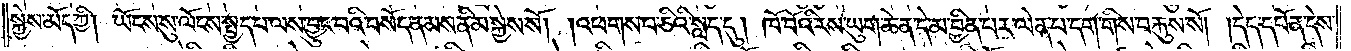སྐྱེས་མོད་ཀྱི། ཡོངས་སུ་ལོངས་སྤྱད་པ་ལས་བྱུང་བའི་བསོད་ནམས་ནི་མ་སྐྱེས་སོ། །འཕགས་པ་ཅིའི་སླད་དུ། ཁོ་བོའི་རས་ཡུག་ཆེན་དེ་མ་བྱིན་པར་ལེན་པ་དག་གིས་བརྐུས་སོ། །དེད་དཔོན་དེས་
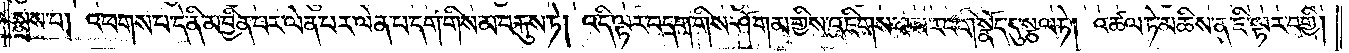སྨྲས་པ། འཕགས་པ་དེ་ནི་མ་བྱིན་པར་ལེན་པར་ལེན་པ་དག་གིས་མ་བརྐུས་ཏེ། འདི་ལྟར་བདག་གིས་ཤོ་གམ་གྱིས་འཇིགས་པས་རང་གི་སྣོད་དུ་སྩལ་ཏེ། འཚལ་ཏེ་མཆིས་ན་ཇི་ལྟར་བགྱི།
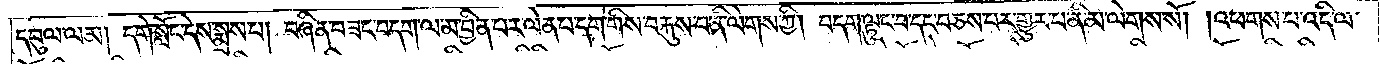དབུལ་ལམ། དགེ་སློང་དེས་སྨྲས་པ། བཞིན་བཟང་བདག་ལ་མ་བྱིན་པར་ལེན་པ་དག་གིས་བརྐུས་པ་ནི་ལེགས་ཀྱི། བདག་ལྟུང་བ་དང་བཅས་པར་གྱུར་པ་ནི་མ་ལེགས་སོ། །འཕགས་པ་འདི་ལ་
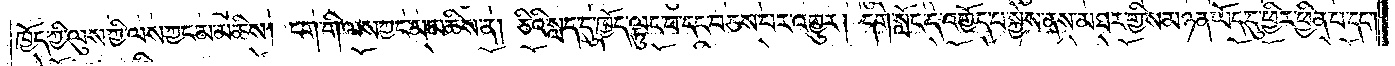ཁྱོད་ཀྱི་ལུས་ཀྱི་ལས་ཀྱང་མ་མཆིས། ངག་གི་ལས་ཀྱང་མ་མཆིས་ན། ཅིའི་སླད་དུ་ཁྱོད་ལྟུང་བ་དང་བཅས་པར་འགྱུར། དགེ་སློང་དེ་འགྱོད་པ་སྐྱེས་ནས་མཐར་གྱིས་མཉན་ཡོད་དུ་ཕྱིར་ཕྱིན་པ་དང༌།
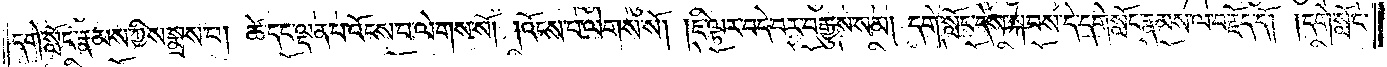དགེ་སློང་རྣམས་ཀྱིས་སྨྲས་པ། ཚེ་དང་ལྡན་པ་འོངས་པ་ལེགས་སོ། །འོངས་པ་ལེགས་སོ། །ཇི་ལྟར་བདེ་བར་བརྒྱུས་སམ། དགེ་སློང་དེས་སྐབས་དེ་དགེ་སློང་རྣམས་ལ་བརྗོད་དོ། །དགེ་སློང་
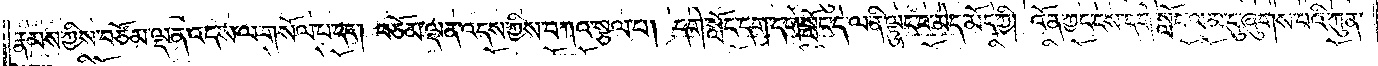རྣམས་ཀྱིས་བཅོམ་ལྡན་འདས་ལ་གསོལ་པ་དང༌། བཅོམ་ལྡན་འདས་ཀྱིས་བཀའ་སྩལ་པ། དགེ་སློང་དག་དགེ་སློང་དེ་ལ་ནི་ལྟུང་བ་མེད་མོད་ཀྱི། འོན་ཀྱང་ངས་དགེ་སློང་ལམ་དུ་ཞུགས་པའི་ཀུན་
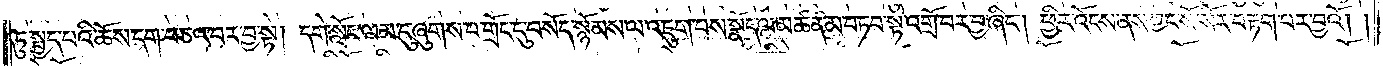ཏུ་སྤྱད་པའི་ཆོས་དག་བཅའ་བར་བྱ་སྟེ། དགེ་སློང་ལམ་དུ་ཞུགས་པ་གྲོང་དུ་བསོད་སྙོམས་ལ་འཇུག་པས་སྣོད་ལ་མཚན་མ་བཏབ་སྟེ་འགྲོ་བར་བྱ་ཞིང༌། ཕྱིར་འོངས་ནས་ཀྱང་སོ་སོར་བརྟག་པར་བྱའོ༎
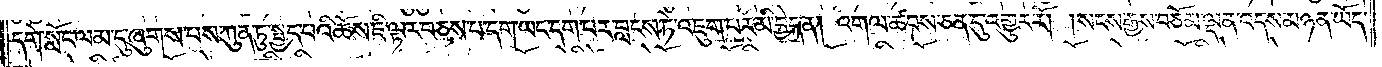དགེ་སློང་ལམ་དུ་ཞུགས་པས་ཀུན་ཏུ་སྤྱད་པའི་ཆོས་ཇི་ལྟར་བཅས་པ་དག་ཡང་དག་པར་བླངས་ཏེ་འཇུག་པར་མི་བྱེད་ན། འགལ་ཚབས་ཅན་དུ་འགྱུར་རོ། །སངས་རྒྱས་བཅོམ་ལྡན་འདས་མཉན་ཡོད་
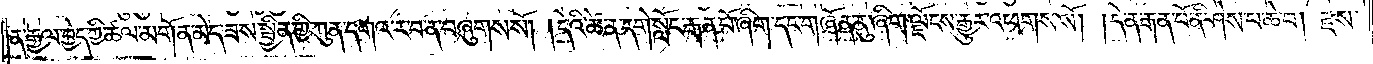ན་རྒྱལ་བྱེད་ཀྱི་ཚལ་མགོན་མེད་ཟས་སྦྱིན་གྱི་ཀུན་དགའ་ར་བ་ན་བཞུགས་སོ། །དེའི་ཚེ་ན་དགེ་སློང་རྒན་པོ་ཞིག་དང་གཞོན་ནུ་ཞིག་ལྗོངས་རྒྱུར་འཕགས་སོ། །དེ་ན་རྒན་པོ་ནི་ཤེས་པ་ཆེ་བ། རྫས་
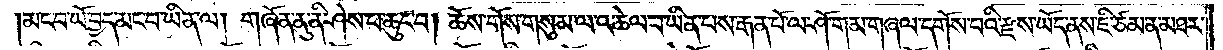མང་བ་ཡོ་བྱད་མང་བ་ཡིན་ལ། གཞོན་ནུ་ནི་ཤེས་པ་ཆུང་བ། ཆོས་གོས་གསུམ་ལ་འཆེལ་བ་ཡིན་པས་རྒན་པོ་ལ་ཤོ་གམ་གཞལ་དགོས་པའི་རྫས་ཡོད་ནས་ཇི་ཙམ་ན་མཐར་
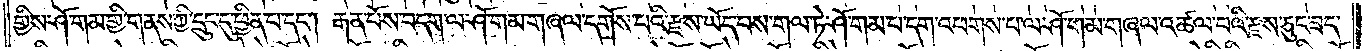གྱིས་ཤོ་གམ་གྱི་གནས་ཀྱི་དྲུང་དུ་ཕྱིན་པ་དང༌། རྒན་པོས་བདག་ལ་ཤོ་གམ་གཞལ་དགོས་པའི་རྫས་ཡོད་པས་གལ་ཏེ་ཤོ་གམ་པ་དག་འཕགས་པ་ལ་ཤོ་གམ་གཞལ་འཚལ་བའི་རྫས་ཅུང་ཟད་
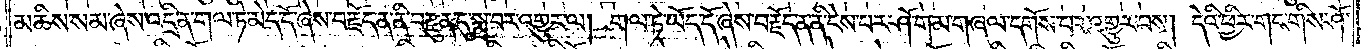མཆིས་སམ་ཞེས་འདྲི་ན་གལ་ཏེ་མེད་དོ་ཞེས་བརྗོད་ན་ནི་བརྫུན་དུ་སྨྲ་བར་འགྱུར་ལ། གལ་ཏེ་ཡོད་དོ་ཞེས་བརྗོད་ན་ནི་ངེས་པར་ཤོ་གམ་གཞལ་དགོས་པར་འགྱུར་པས། དེའི་ཕྱིར་གང་གིས་ཤོ་
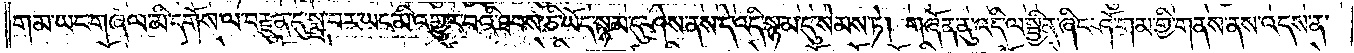གམ་ཡང་གཞལ་མི་དགོས་ལ་བརྫུན་དུ་སྨྲ་བར་ཡང་མི་འགྱུར་བའི་ཐབས་ཅི་ཡོད་སྙམ་དུ་ཤེས་ནས་དེ་འདི་སྙམ་དུ་སེམས་ཏེ། གཞོན་ནུ་འདི་ལ་སྦྱིན་ཞིང་ཤོ་གམ་གྱི་གནས་ནས་འདས་ན་
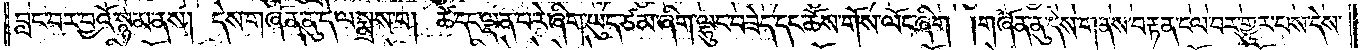བླང་བར་བྱའོ་སྙམ་ནས། དེས་གཞོན་ནུ་དེ་ལ་སྨྲས་པ། ཚེ་དང་ལྡན་པ་རེ་ཞིག་ཡུད་ཙམ་ཞིག་ལྷུང་བཟེད་དང་ཆོས་གོས་ལོང་ཞིག །གཞོན་ནུ་དེས་གནས་བརྟན་ངལ་བར་གྱུར་པས་དེས་
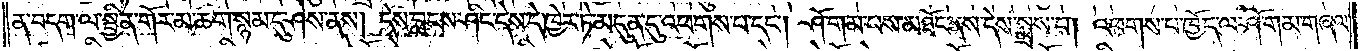ན་བདག་ལ་སྦྱིན་གོར་མ་ཆག་སྙམ་དུ་ཤེས་ནས། དེས་བླངས་ཤིང་དེས་དེ་ཁྱེར་ཏེ་མདུན་དུ་འཕགས་པ་དང༌། ཤོ་གམ་པས་མཐོང་ནས་དེས་སྨྲས་པ། འཕགས་པ་ཁྱོད་ལ་ཤོ་གམ་གཞལ་
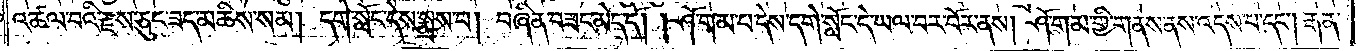འཚལ་བའི་རྫས་ཅུང་ཟད་མཆིས་སམ། དགེ་སློང་དེས་སྨྲས་པ། བཞིན་བཟང་མེད་དོ། །ཤོ་གམ་པ་དེས་དགེ་སློང་དེ་ཡལ་བར་བོར་ནས། ཤོ་གམ་གྱི་གནས་ནས་འདས་པ་དང༌། རྒན་
